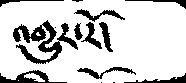འགྱུར་རོ།
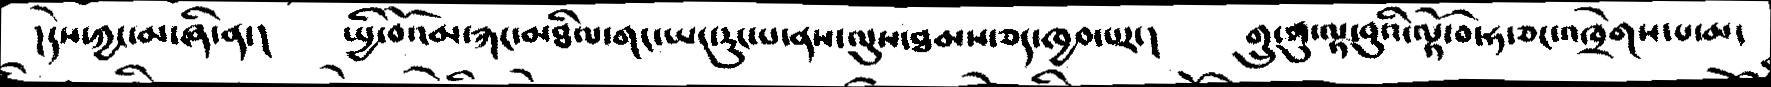།དེས་ཀྱང་མ་ཞི་ན་།   སྤྱི་བོའམ་རྐང་མཐིལ་གང་ཡང་རུང་པ་ནས་ལུས་ཐམས་ཅད་ཁྱབ་པར་།   གྲུ་ནུ་ལྟ་བུའི་ལྟོ་བ་ཧ་ཅང་འཁྲེགས་པ་མ་
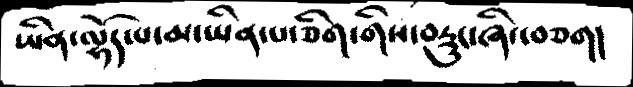ཡིན་ལྷོད་པ་མ་ཡིན་པ་ཅིག་གིས་བརྡུང་ཞིང་བཅག།
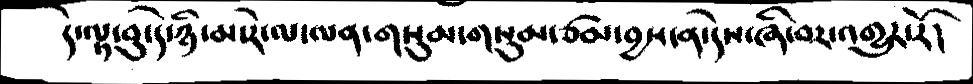དེ་ལྟ་བུ་དེ་ཉིད་མ་རེ་ལ་ལན་གསུམ་གསུམ་ཙམ་བྱས་ན་དེས་ཞི་བར་འགྱུར་རོ།
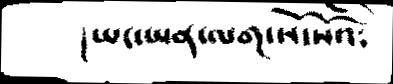།ཡང་ཡན་ལག་སོ་སོའི༴
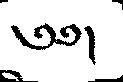༄༅།
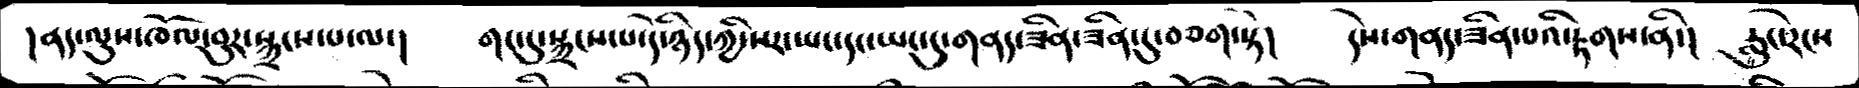།ནད་ལུས་ཁོལ་བུར་སྐྲངས་པ་ལ་།   གང་དུ་སྐྲངས་པ་དེ་ཉིད་ཀྱི་སར་ཡང་དང་ཡང་དུ་གནད་ཟིན་ཟིན་དུ་བཅག་སྟེ།   དེས་གནད་ཟིན་པའི་རྟགས་ནི་།   རླུང་རེངས་
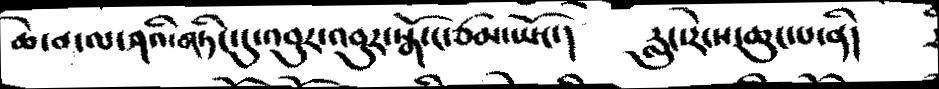ཆེ་བ་ལ་ཤའི་གཏིང་དུ་འབུར་འབུར་སྒོ་ང་ཙམ་ཡོང་།   རླུང་རེངས་ཆུང་པ་ནི།
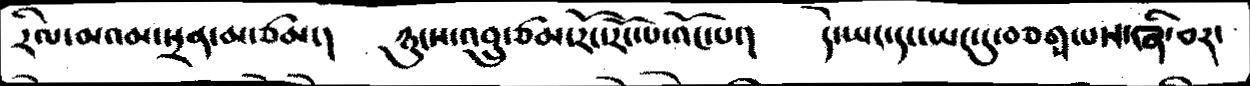རིལ་མའམ་སྲན་མ་ཙམ་།   ཉུངས་འབྲུ་ཙམ་རོང་རོང་པ་འོང་པ་།   དེ་ཡང་དང་ཡང་དུ་བཅགས་པས་ཞི་བར་
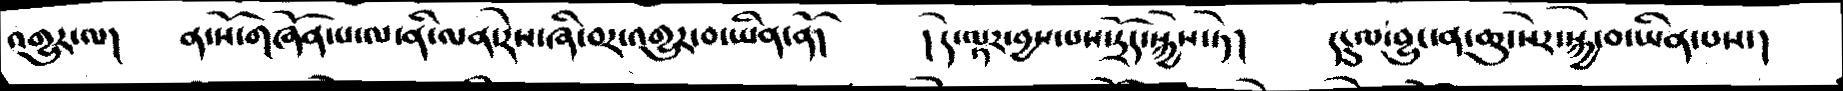འགྱུར་ལ།   ན་སོ་གཞོན་པ་ལ་ནི་ལན་རེས་ཞི་བར་འགྱུར་བ་ཡིན་ནོ།   །དེ་ལྟར་བྱས་པས་དྲོད་སྐྱེས་ཏེ།    དངུལ་བྱུང་ན་ཆུ་སེར་སྐྱེ་བ་ཡིན་པས་།
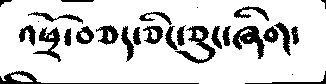འཕྲོ་བཅད་ཅིང་ཅུང་ཞིག་
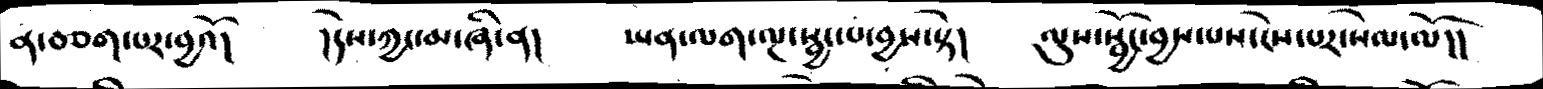ན་བཅག་པར་བྱའོ།   །དེས་ཀྱང་མ་ཞི་ན།   ཡན་ལག་ལྔ་སྦྱང་པ་བྱས་སྟེ།   ལུས་སྦྱོང་བྱས་པས་ངེས་པར་སེལ་ལོ།།
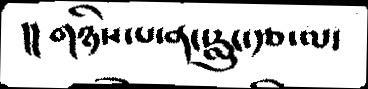།།གཉིས་པ་ནང་རླུང་རྩ་ལ་
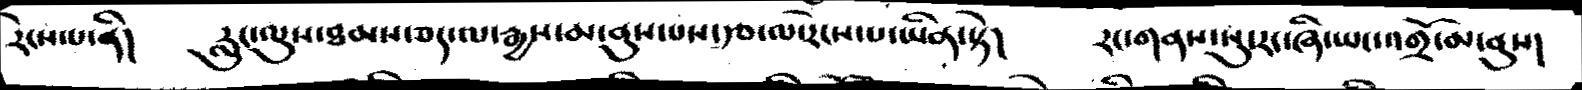རེངས་པ་ནི།   རླུང་ལུས་ཐམས་ཅད་ལ་རྒྱས་མ་ནུས་པས་རྩ་ལ་རེངས་པ་ཡིན་སྟེ།   རང་གནས་སུ་རང་ཞི་ཡང་འགྲོ་མ་ནུས།
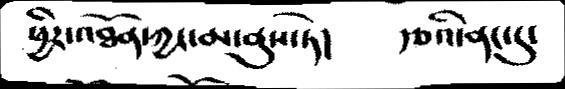ཕྱིར་འཐོན་ཀྱང་མ་ནུས་ཏེ།   རྩའི་ནང་དུ་
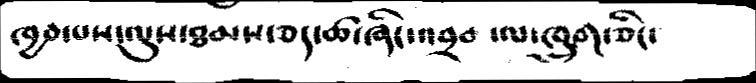ཁྱབ་པས་ལུས་ཐམས་ཅད་ཚ་ཞིང་འབྲབ་ལ་ཁྲུག་ཅིང་
